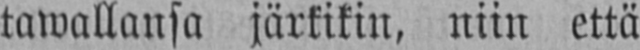tawallansa järkikin, niin että
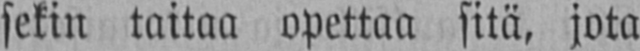sekin taitaa opettaa sitä, jota
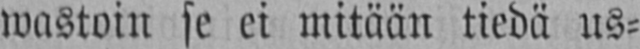wastoin se ei mitään tiedä us-
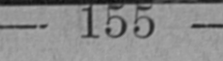155
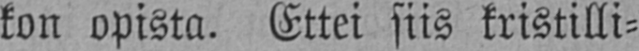kon opista. Ettei siis kristilli-
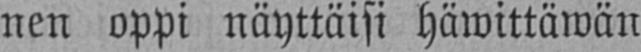nen oppi näyttäisi häwittäwän
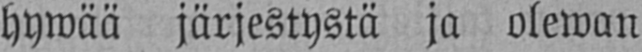hywää järjestystä ja olewan
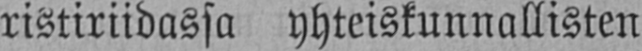ristiriidassa yhteiskunnallisten
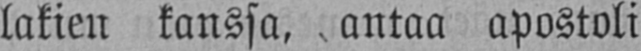lakien kanssa, antaa apostoli
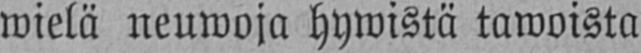wielä neuwoja hywistä tawoista
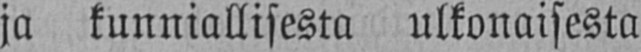ja kunniallisesta ulkonaisesta
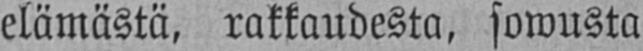elämästä, rakkaudesta, sowusta
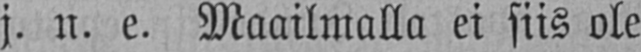j. n. e. Maailmalla ei siis ole
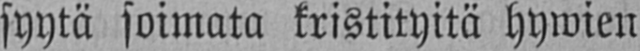syytä soimata kristityitä hywien
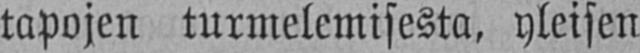tapojen turmelemisesta, yleisen
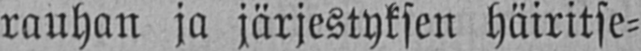rauhan ja järjestyksen häiritse-
